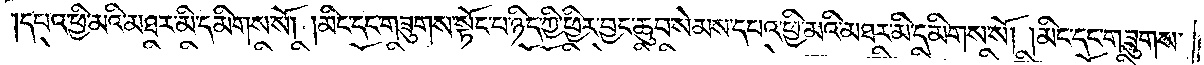དཔའ་ཕྱི་མའི་མཐར་མི་དམིགས་སོ། །མིང་དང་གཟུགས་སྟོང་པ་ཉིད་ཀྱི་ཕྱིར་བྱང་ཆུབ་སེམས་དཔའ་ཕྱི་མའི་མཐར་མི་དམིགས་སོ། །མིང་དང་གཟུགས་
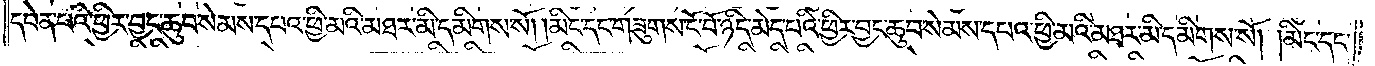དབེན་པའི་ཕྱིར་བྱང་ཆུབ་སེམས་དཔའ་ཕྱི་མའི་མཐར་མི་དམིགས་སོ། །མིང་དང་གཟུགས་ངོ་བོ་ཉིད་མེད་པའི་ཕྱིར་བྱང་ཆུབ་སེམས་དཔའ་ཕྱི་མའི་མཐར་མི་དམིགས་སོ། །མིང་དང་
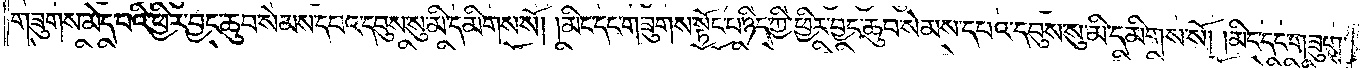གཟུགས་མེད་པའི་ཕྱིར་བྱང་ཆུབ་སེམས་དཔའ་དབུས་སུ་མི་དམིགས་སོ། །མིང་དང་གཟུགས་སྟོང་པ་ཉིད་ཀྱི་ཕྱིར་བྱང་ཆུབ་སེམས་དཔའ་དབུས་སུ་མི་དམིགས་སོ། །མིང་དང་གཟུགས་
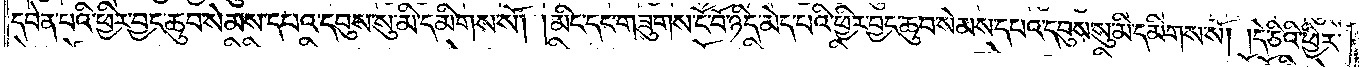དབེན་པའི་ཕྱིར་བྱང་ཆུབ་སེམས་དཔའ་དབུས་སུ་མི་དམིགས་སོ། །མིང་དང་གཟུགས་ངོ་བོ་ཉིད་མེད་པའི་ཕྱིར་བྱང་ཆུབ་སེམས་དཔའ་དབུས་སུ་མི་དམིགས་སོ། །དེ་ཅིའི་ཕྱིར་
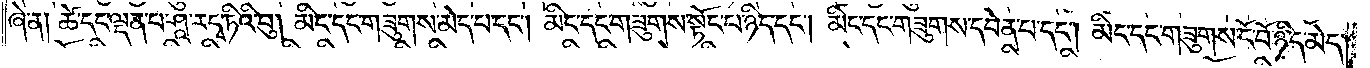ཞེ་ན། ཚེ་དང་ལྡན་པ་ཤཱ་རདྭ་ཏིའི་བུ། མིང་དང་གཟུགས་མེད་པ་དང༌། མིང་དང་གཟུགས་སྟོང་པ་ཉིད་དང༌། མིང་དང་གཟུགས་དབེན་པ་དང༌། མིང་དང་གཟུགས་ངོ་བོ་ཉིད་མེད་
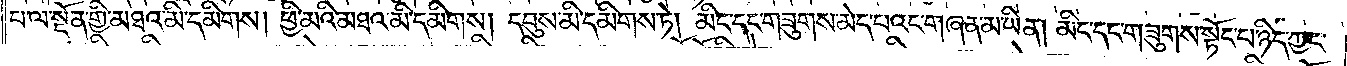པ་ལ་སྔོན་གྱི་མཐའ་མི་དམིགས། ཕྱི་མའི་མཐའ་མི་དམིགས། དབུས་མི་དམིགས་ཏེ། མིང་དང་གཟུགས་མེད་པའང་གཞན་མ་ཡིན། མིང་དང་གཟུགས་སྟོང་པ་ཉིད་ཀྱང་
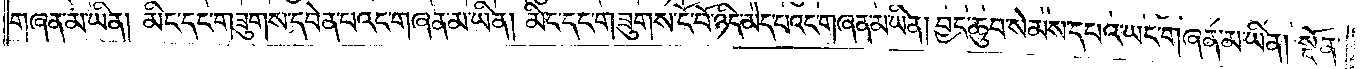གཞན་མ་ཡིན། མིང་དང་གཟུགས་དབེན་པའང་གཞན་མ་ཡིན། མིང་དང་གཟུགས་ངོ་བོ་ཉིད་མེད་པའང་གཞན་མ་ཡིན། བྱང་ཆུབ་སེམས་དཔའ་ཡང་གཞན་མ་ཡིན། སྔོན་
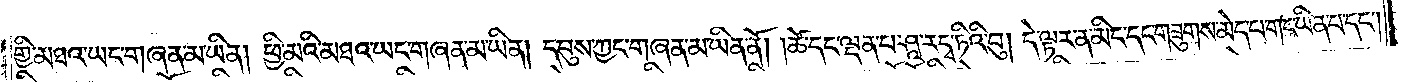གྱི་མཐའ་ཡང་གཞན་མ་ཡིན། ཕྱི་མའི་མཐའ་ཡང་གཞན་མ་ཡིན། དབུས་ཀྱང་གཞན་མ་ཡིན་ནོ། །ཚེ་དང་ལྡན་པ་ཤཱ་རདྭ་ཏིའི་བུ། དེ་ལྟར་ན་མིང་དང་གཟུགས་མེད་པ་གང་ཡིན་པ་དང༌།
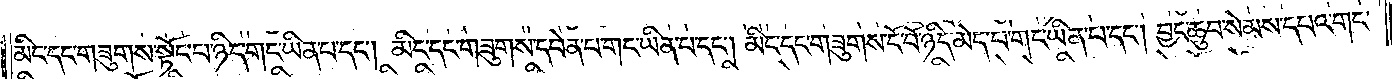མིང་དང་གཟུགས་སྟོང་པ་ཉིད་གང་ཡིན་པ་དང༌། མིང་དང་གཟུགས་དབེན་པ་གང་ཡིན་པ་དང༌། མིང་དང་གཟུགས་ངོ་བོ་ཉིད་མེད་པ་གང་ཡིན་པ་དང༌། བྱང་ཆུབ་སེམས་དཔའ་གང་
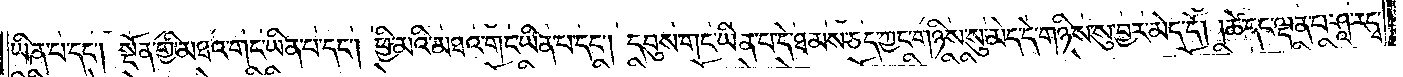ཡིན་པ་དང༌། སྔོན་གྱི་མཐའ་གང་ཡིན་པ་དང༌། ཕྱི་མ་མཐའ་གང་ཡིན་པ་དང༌། དབུས་གང་ཡིན་པ་དེ་ཐམས་ཅད་ཀྱང་གཉིས་སུ་མེད་དེ་གཉིས་སུ་བྱར་མེད་དོ། །ཚེ་དང་ལྡན་པ་ཤཱ་རདྭ་
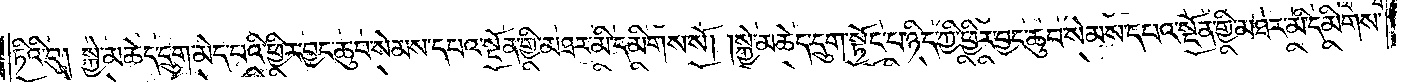ཏིའི་བུ། སྐྱེ་མཆེད་དྲུག་མ་དཔའི་ཕྱིར་བྱང་ཆུབ་སེམས་དཔའ་སྔོན་གྱི་མཐར་མི་དམིགས་སོ། །སྐྱེ་མཆེད་དྲུག་སྟོང་པ་ཉིད་ཀྱི་ཕྱིར་བྱང་ཆུབ་སེམས་དཔའ་སྔོན་གྱི་མཐར་མི་དམིགས་
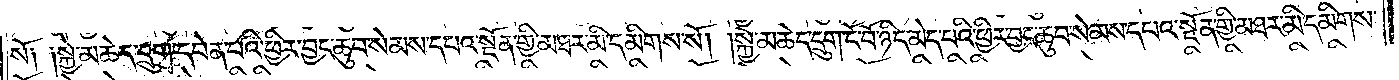སོ༑ ༑སྐྱེ་མཆེད་དྲུག་དབེན་པའི་ཕྱིར་བྱང་ཆུབ་སེམས་དཔའ་སྔོན་གྱི་མཐར་མི་དམིགས་སོ། །སྐྱེ་མཆེད་དྲུག་ངོ་བོ་ཉིད་མེད་པའི་ཕྱིར་བྱང་ཆུབ་སེམས་དཔའ་སྔོན་གྱི་མཐར་མི་དམིགས་
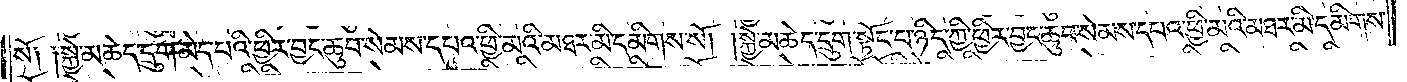སོ༑ ༑སྐྱེ་མཆེད་དྲུག་མེད་པའི་ཕྱིར་བྱང་ཆུབ་སེམས་དཔའ་ཕྱི་མའི་མཐར་མི་དམིགས་སོ། །སྐྱེ་མཆེད་དྲུག་སྟོང་པ་ཉིད་ཀྱི་ཕྱིར་བྱང་ཆུབ་སེམས་དཔའ་ཕྱི་མའི་མཐར་མི་དམིགས་
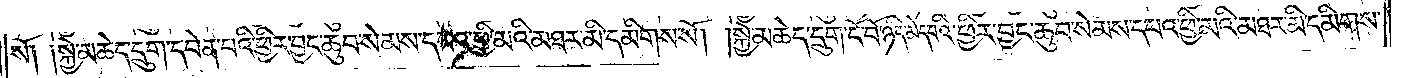སོ༑ ༑སྐྱེ་མཆེད་དྲུག་དབེན་པའི་ཕྱིར་བྱང་ཆུབ་སེམས་དཔའ་ཕྱི་མའི་མཐར་མི་དམིགས་སོ། །སྐྱེ་མཆེད་དྲུག་ངོ་བོ་ཉིད་མེད་པའི་ཕྱིར་བྱང་ཆུབ་སེམས་དཔའ་ཕྱི་མའི་མཐར་མི་དམིགས་
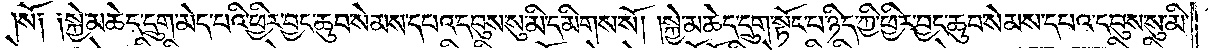སོ། །སྐྱེ་མཆེད་དྲུག་མེད་པའི་ཕྱིར་བྱང་ཆུབ་སེམས་དཔའ་དབུས་སུ་མི་དམིགས་སོ། །སྐྱེ་མཆེད་དྲུག་སྟེང་པ་ཉིད་ཀྱི་ཕྱིར་བྱང་ཆུབ་སེམས་དཔའ་དབུས་སུ་མི་
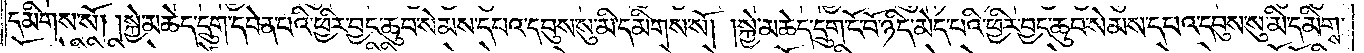དམིགས་སོ། །སྐྱེ་མཆེད་དྲུག་དབེན་པའི་ཕྱིར་བྱང་ཆུབ་སེམས་དཔའ་དབུས་སུ་མི་དམིགས་སོ། །སྐྱེ་མཆེད་དྲུག་ངོ་བོ་ཉིད་མེད་པའི་ཕྱིར་བྱང་ཆུབ་སེམས་དཔའ་དབུས་སུ་མི་དམིགས་
